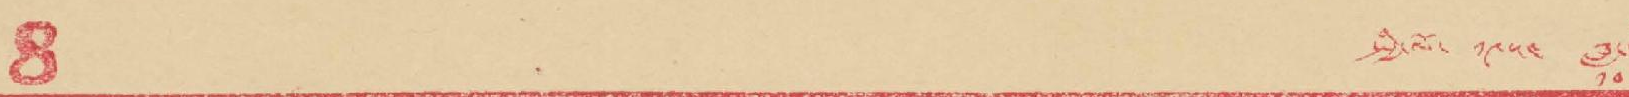8 སྤྱི་ལོ་ ༡༩༥༤ ཟླ་
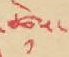ཚེས་
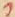༡
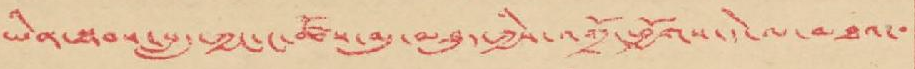ཡིན་སྟབས་སླ་ཀྱང་ང་ཚོས་མུ་མཐུད་ཀྱིས་འགྲོ་ཕྱོགས་པེ་ལ་མཐའ་
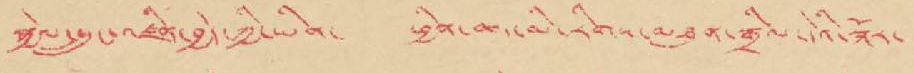སྒྱེལ་གྲུང་འཛིན་བྱེད་ཀྱི་ཡིན། ཕྱིན་ཆད་མི་རིགས་མཐུན་སྒྲིལ་དེའི་སྐོར་
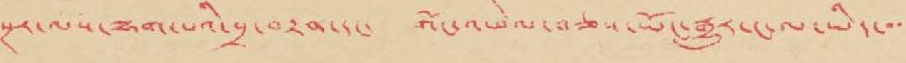སྔར་ལས་ལྷག་པའི་པྲ་བསྟན་དང་ གོང་འཕེལ་བཅས་ཡོང་རྒྱུར་ང་ལ་ཡིད་་
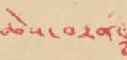ཆེས་བརྟན་
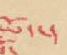ཡོད།
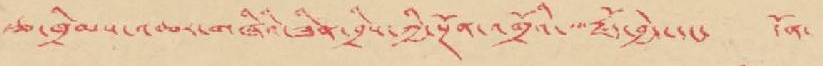རྩ་ཁྲིམས་འཆར་གཞིའི་ཟིན་བྲིས་ཀྱི་སྔོན་འགྲོའི་བརྗོད་བྱེད་དང་ དོན་
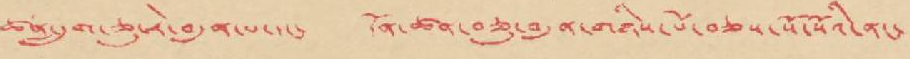ཚན་དྲུག་ཅུ་རེ་བདུན་པ་དང་ དོན་ཚན་བཅུ་བདུན་གཉིས་པོ་བཅས་སོ་སོའི་ནང་
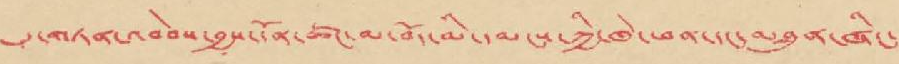དུ་གཏན་འབེབས་བྱས་དོན་ཚང་མ་བོད་མི་དམངས་ཀྱི་ཁེ་ཕན་དང་མཐུན་ཞིང་
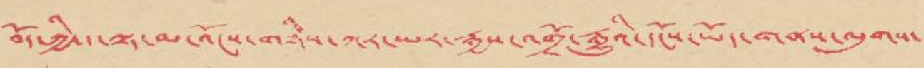བོད་ཀྱི་ད་ལྟ་མ་འོངས་གཉིས་ཀར་ཡར་རྒྱས་འགྲོ་རྒྱུའི་དངོས་ཡོད་གནས་ལུགས་
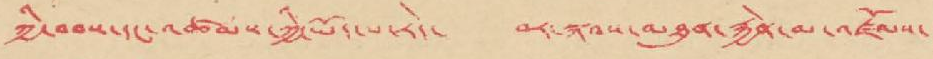ཀྱི་བབས་དང་འཚམས་ཀྱི་ཡོད་པ་རེད་ བར་སྐབས་མཐུན་རྐྱེན་མ་འཛོམས་
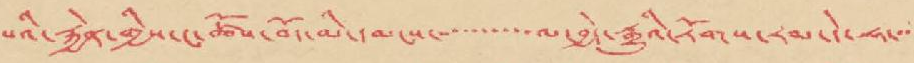པའི་རྐྱེན་གྱིས་ང་ཚོས་བོད་མི་དམངས་་་་་་་་་་་ལ་བྱེད་རྒྱུའི་རོགས་རམ་དེ་ཧ་་་
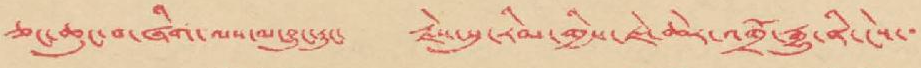ཅང་ཆུང་བ་ཞིག་ལས་མ་བྱུང་རུང་ རྗེས་རིམ་གྱིས་ཇེ་ཆེར་འགྲོ་རྒྱུ་ནི་ངེས་་
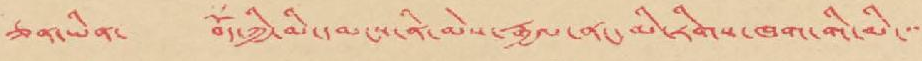ཅན་ཡིན་ བོད་ཀྱི་མི་དམངས་ནི་མེས་རྒྱལ་ནང་མི་རིགས་ཁག་གི་མི་་་
